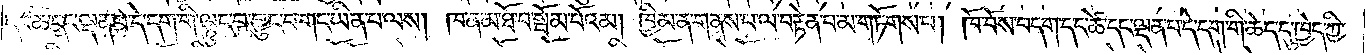དང་ཚེ་དང་ལྡན་པ་དེ་དག་གི་ལྟུང་བ་བྱུང་བ་གང་ཡིན་པ་ལས། ཁ་ན་མ་ཐོ་བ་སྦོམ་པོའམ། ཁྱིམ་ན་གནས་པ་ལ་བརྟེན་པ་མ་གཏོགས་པ། ཁོ་བོས་བདག་དང་ཚེ་དང་ལྡན་པ་དེ་དག་གི་ཆེད་དུ་ཁྱེད་ཀྱི་
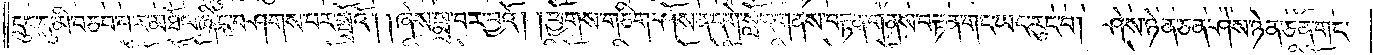དྲུང་དུ་མི་བཅབ་པར་མཐོལ་ཞིང་བཤགས་པར་སྤྲོའོ། །ཞེས་སྨྲ་བར་བྱའོ། །ཕྱོགས་གཅིག་ཤོས་ན་དགེ་སློང་གནས་བརྟན་གནས་བརྟན་གང་ཡང་རུང་བ། ཤེས་ཉེན་ཅན་ཤེས་ཉེན་ཅན་གང་
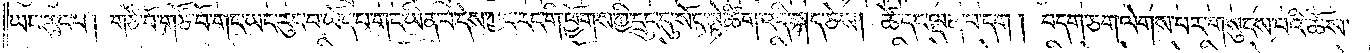ཡང་རུང་བ། གཙོ་བོ་གཙོ་བོ་གང་ཡང་རུང་བ་ཡོད་པ་གང་ཡིན་པ་དེས་ཀྱང་རང་གི་ཕྱོགས་ཀྱི་དྲུང་དུ་སོང་སྟེ་ཚིག་འདི་སྐད་ཅེས། ཚེ་དང་ལྡན་པ་དག། བདག་ཅག་ལེགས་པར་གསུངས་པའི་ཆོས་
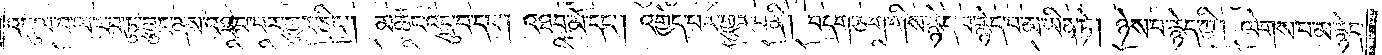འདུལ་བ་ལ་རབ་ཏུ་བྱུང་ནས་འཐབ་པར་གྱུར་ཅིང༌། མཚང་འདྲུ་བ་དང༌། འཐབ་མོ་དང༌། འགྱེད་པར་གྱུར་པ་ནི། བདག་ཅག་གིས་རྙེད་པ་རྙེད་པ་མ་ཡིན་ཏེ། ཉེས་པ་རྙེད་ཀྱི། ལེགས་པ་མ་རྙེད་
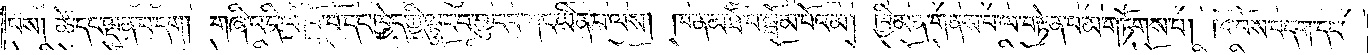པས། ཚེ་དང་ལྡན་པ་དག །གཞི་འདི་ལ་ཁོ་བོ་དང་ཁྱེད་ཀྱི་ལྟུང་བ་ཕྱུང་བ་གང་ཡིན་པ་ལས། ཁ་ན་མ་ཐོ་བ་སྦོམ་པོའམ། ཁྱིམ་ན་གནས་པ་ལ་བརྟེན་པ་མ་གཏོགས་པ། ཁོ་བོས་བདག་དང་
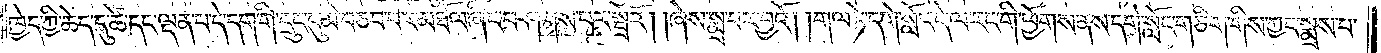ཁྱེད་ཀྱི་ཆེད་དུ་ཚེ་དང་ལྡན་པ་དེ་དག་གི་དྲུང་དུ་མི་བཅབ་པར་མཐོལ་ཞིང་བཤགས་པར་སྤྲོའོ། །ཞེས་སྨྲ་བར་བྱའོ། །གལ་ཏེ་དགེ་སློང་དེ་ལ་རང་གི་ཕྱོགས་ནས་དགེ་སློང་གཅིག་གིས་ཀྱང་སྨྲས་པ་
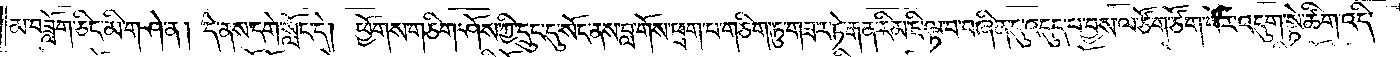མ་བཟློག་ཅིང་མི་གཤེ་ན། དེ་ནས་དགེ་སློང་དེ། ཕྱོགས་གཅིག་ཤོས་ཀྱི་དྲུང་དུ་སོང་ནས་བླ་གོས་ཕྲག་པ་གཅིག་ཏུ་གཟར་ཏེ་རྒན་རིམ་ཇི་ལྟ་བ་བཞིན་དུ་འདུད་པ་བྱས་ལ་ཙོག་ཙོག་པོར་འདུག་སྟེ་ཚིག་འདི་
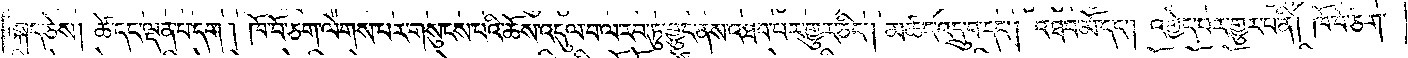སྐད་ཅེས། ཚེ་དང་ལྡན་པ་དག །ཁོ་བོ་ཅག་ལེགས་པར་གསུངས་པའི་ཆོས་འདུལ་བ་ལ་རབ་ཏུ་བྱུང་ནས་འཐབ་པར་གྱུར་ཅིང༌། མཚང་འདྲུ་བ་དང༌། འཐབ་མོ་དང༌། འགྱེད་པར་གྱུར་པ་ནི། ཁོ་བོ་ཅག་
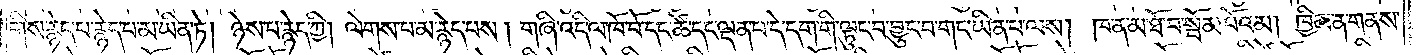གིས་རྙེད་པ་རྙེད་པ་མ་ཡིན་ཏེ། ཉེས་པ་རྙེད་ཀྱི། ལེགས་པ་མ་རྙེད་པས། གཞི་འདི་ལ་ཁོ་བོ་དང་ཚེ་དང་ལྡན་པ་དེ་དག་གི་ལྟུང་བ་བྱུང་བ་གང་ཡིན་པ་ལས། ཁ་ན་མ་ཐོ་བ་སྦོམ་པོའམ། ཁྱིམ་ན་གནས་
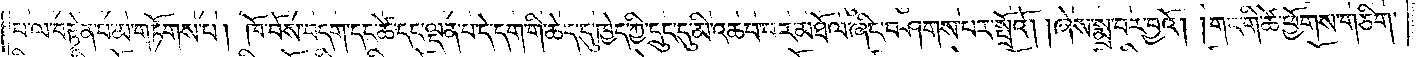པ་ལ་བརྟེན་པ་མ་གཏོགས་པ། ཁོ་བོས་བདག་དང་ཚེ་དང་ལྡན་པ་དེ་དག་གི་ཆེད་དུ་ཁྱེད་ཀྱི་དྲུང་དུ་མི་འཆབ་པར་མཐོལ་ཞིང་བཤགས་པར་སྤྲོའོ། །ཞེས་སྨྲ་པར་བྱའོ། །གང་གི་ཚེ་ཕྱོགས་གཅིག་
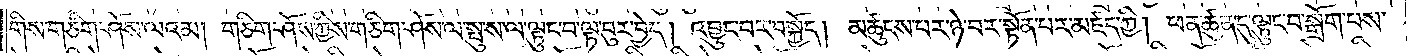གིས་གཅིག་ཤོས་ལའམ། གཅིག་ཤོས་ཀྱིས་གཅིག་ཤོས་ལ་སྤུས་ལ་ལྟུང་བ་ལྟ་བུར་བྱེད། འབྱུང་བར་བསྐྱོད། མཚུངས་པར་ཉེ་བར་སྟོན་པར་མཛད་ཀྱི། ཕན་ཚུན་དུ་ལྟུང་བ་སྒྲོག་པས་
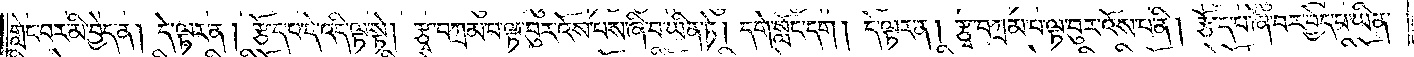གླེང་བར་མི་བྱེད་ན། དེ་ལྟར་ན། རྩོད་པ་དེ་འདི་ལྟ་སྟེ། རྩྭ་བཀྲམ་པ་ལྟ་བུར་འོས་པས་ཞི་བ་ཡིན་ཏེ། དགེ་སློང་དག། དེ་ལྟར་ན། རྩྭ་བཀྲམ་པ་ལྟ་བུར་འོས་པ་ནི། རྩོད་པ་ཞི་བར་བྱེད་པ་ཡིན་
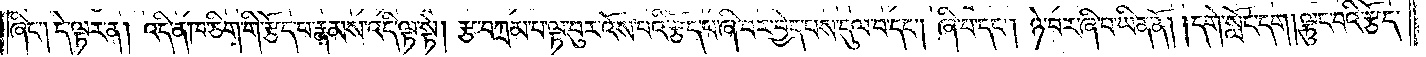ཞིང༌། དེ་ལྟར་ན། འདི་ན་ཁ་ཅིག་གི་རྩོད་པ་རྣམས་འདི་ལྟ་སྟེ། རྩ་བཀྲམ་པ་ལྟ་བུར་འོས་པའི་རྩོད་པ་ཞི་བར་བྱེད་པས་དུལ་བ་དང༌། ཞི་བ་དང༌། ཉེ་བར་ཞི་བ་ཡིན་ནོ། །དགེ་སློང་དག །ལྟུང་བའི་རྩོད་
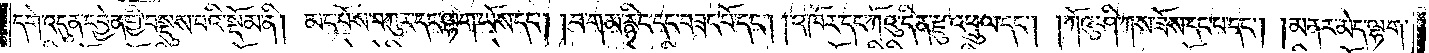དགེ་འདུན་དབྱེན་གྱི་བསྡུས་པའི་སྡོམ་ནི། མང་པོས་བཀུར་དང་ལྷག་ཡོས་དང༌། །བ་གམ་རྙིང་དང་བཟང་པོ་དང༌། །འཁོར་དང་ཀོའུ་དིན་རྫུ་འཕྲུལ་དང༌། །ཀོའུ་ཤི་ཀས་ཟོས་དང་བ་དང༌། །མནར་མེད་ལྷག་
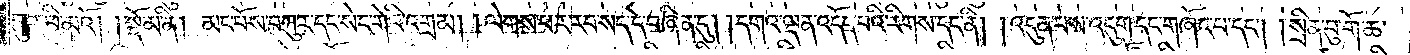གྱུར་ཕྱི་མའོ།    །སྡོམ་ནི། མང་པོས་བཀུར་དང་སེང་གེའི་འགྲམ། །ལེགས་པར་རབ་སད་དེ་བཞིན་དུ། དགའ་ལྡན་འདོད་པའི་རིགས་དང་ནི། །འདུན་པས་འདུག་དང་གཞོང་པ་དང༌། །སྲིན་བུ་གོ་ཆ་
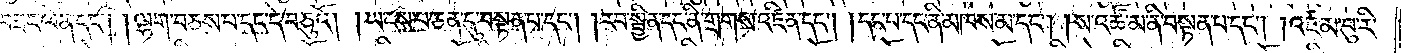བཟང་ལེན་དང༌། །ལྷག་བཅས་པ་དང་དེ་བཅུའོ། །ཡངས་པ་ཅན་དུ་བསྟན་པ་དང༌། །རབ་སྦྱིན་དང་ནི་གྲགས་འཛིན་དང༌། །དང་བ་དང་ནི་མཁས་མ་དང༌། །ས་འཚོ་མ་ནི་བསྟན་པ་དང༌། །འཛམ་བུ་རི་
